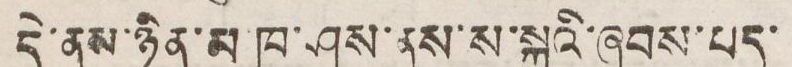དེ་ནས་ཉིན་མ་ཁ་ཤས་ནས་ས་སྐྱའི་ཞབས་པད་
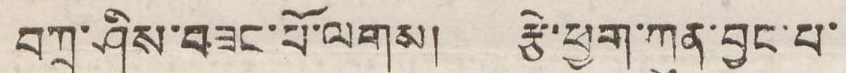བཀྲ་ཤིས་བཟང་པོ་ལགས། རྩེ་ཕྱག་ཀུན་བྱང་པ་
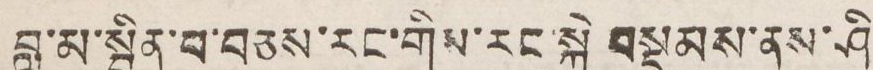བླ་མ་སྦྱིན་པ་བཅས་རང་གིས་རང་སྐེ བསྡམས་ནས་ཤི
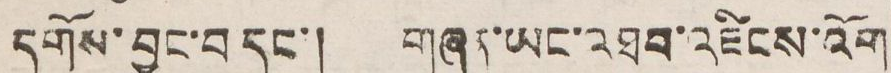དགོས་བྱུང་བ་དང་། གཞན་ཡང་འཐབ་འཛིངས་འོག
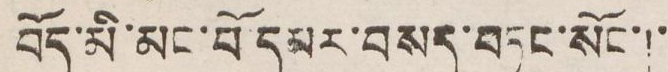བོད་མི་མང་པོ་དམར་བསད་བཏང་སོང་།་
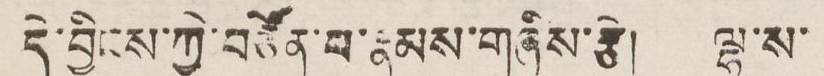དེ་བྱིངས་ཀྱི་བཙོན་བ་རྣམས་གཞིས་རྩེ། ལྷ་ས་
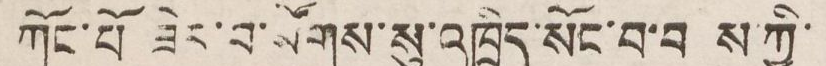ཀོང་པོ ཟེར་བ་སོགས་སུ་འཁྲིད་སོང་བ་བ ས་ཀྱི་
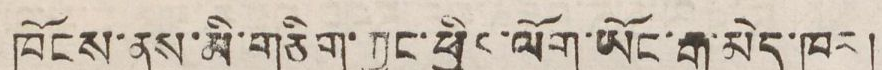ཁོངས་ནས་མི་གཅིག་ཀྱང་ཕྱིར་ལོག་ཡོང་རྒྱུ་མེད་ཁར།
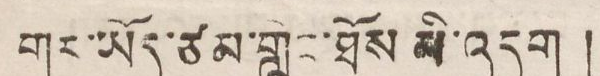གར་ཡོད་ཙམ་གླང་ཐོས མི་འདུག །
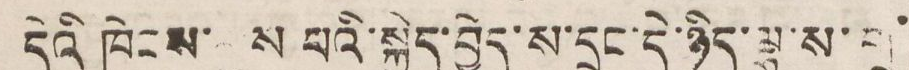དེའི ཁེངས་ནུས པའི་སྐྱིད་བྱེད་ས་དྲུང་དེ་ཉིད་ལྷ་ས་གྲ་
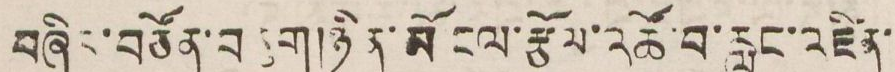བཞིང་བཙོན་བརྩག།།ཉིན་མོ ངལ་རྩོལ་འཚོ་བ་རླང་འཛིན་
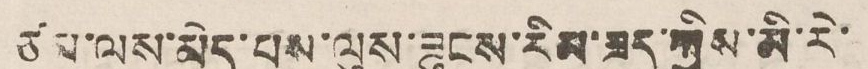ཙམ་ལས་མེད་པས་ལུས་ཟུངས་རིམ་ཟད་ཀྱིས་མི་རེ་
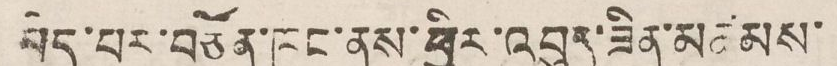མེད་པར་བཙོན་ཁང་ནས་ཕྱིར་འབུར་ཟིན་མཚམས་
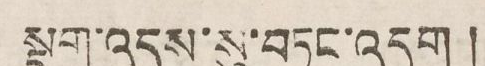སྡུག་འདས་སུ་བཏང་འདུག །
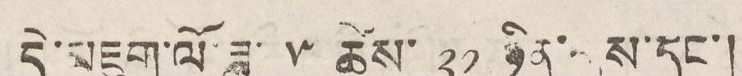དེ་མཇུག་ལོ་ཟླ་ ༥ ཚེས་ ༢༡ ཉིན་དུས་དང་།
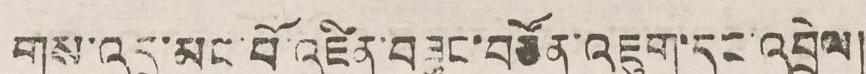གུས་འདྲ་མང་པོ་འཛིན་བཟུང་བཙོན་འཇུག་དང་འབྲེལ།
